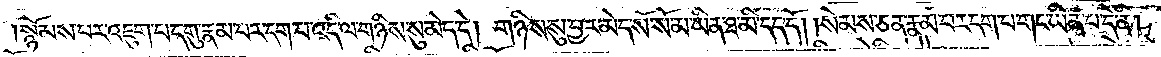སྙོམས་པར་འཇུག་པ་དགུ་རྣམ་པར་དག་པ་འདི་ལ་གཉིས་སུ་མེད་དེ། གཉིས་སུ་བྱར་མེད་སོ་སོ་མ་ཡིན་ཐ་མི་དད་དོ། །སེམས་ཅན་རྣམ་པར་དག་པ་གང་ཡིན་པ་དེ་ནི།
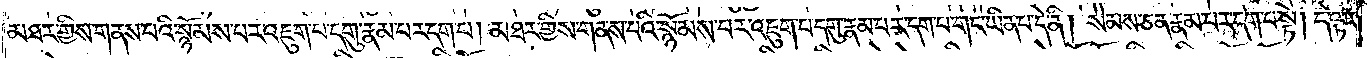མཐར་གྱིས་གནས་པའི་སྙོམས་པར་འཇུག་པ་དགུ་རྣམ་པར་དག་པ། མཐར་གྱིས་གནས་པའི་སྙོམས་པར་འཇུག་པ་དགུ་རྣམ་པར་དག་པ་གང་ཡིན་པ་དེ་ནི། སེམས་ཅན་རྣམ་པར་དག་པ་སྟེ། དེ་ལྟར་
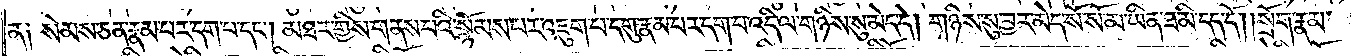ན། སེམས་ཅན་རྣམ་པར་དག་པ་དང༌། མཐར་གྱིས་གནས་པའི་སྙོམས་པར་འཇུག་པ་དགུ་རྣམ་པར་དག་པ་འདི་ལ་གཉིས་སུ་མེད་དེ། གཉིས་སུ་བྱར་མེད་སོ་སོ་མ་ཡིན་ཐ་མི་དད་དོ། །སྲོག་རྣམ་
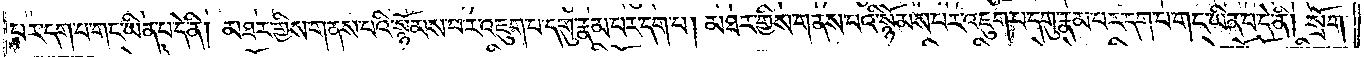པར་དག་པ་གང་ཡིན་པ་དེ་ནི། མཐར་གྱིས་གནས་པའི་སྙོམས་པར་འཇུག་པ་དགུ་རྣམ་པར་དག་པ། མཐར་གྱིས་གནས་པའི་སྙོམས་པར་འཇུག་པ་དགུ་རྣམ་པར་དག་པ་གང་ཡིན་པ་དེ་ནི། སྲོག་
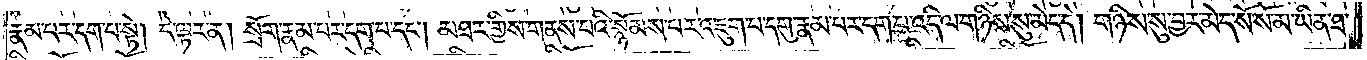རྣམ་པར་དག་པ་སྟེ། དེ་ལྟར་ན། སྲོག་རྣམ་པར་དག་པ་དང༌། མཐར་གྱིས་གནས་པའི་སྙོམས་པར་འཇུག་པ་དགུ་རྣམ་པར་དག་པ་འདི་ལ་གཉིས་སུ་མེད་དེ། གཉིས་སུ་བྱར་མེད་སོ་སོ་མ་ཡིན་ཐ་
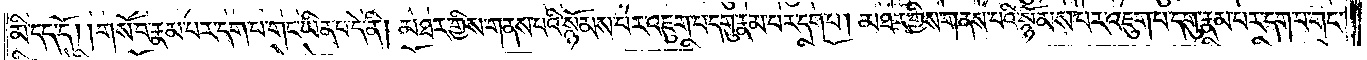མི་དད་དོ། །གསོ་བ་རྣམ་པར་དག་པ་གང་ཡིན་པ་དེ་ནི། མཐར་གྱིས་གནས་པའི་སྙོམས་པར་འཇུག་པ་དགུ་རྣམ་པར་དག་པ། མཐར་གྱིས་གནས་པའི་སྙོམས་པར་འཇུག་པ་དགུ་རྣམ་པར་དག་པ་གང་
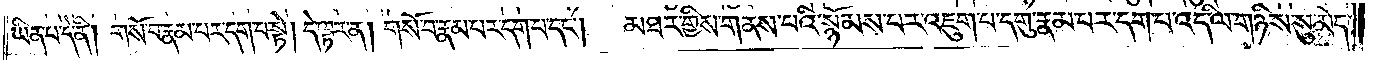ཡིན་པ་དེ་ནི། གསོ་བ་རྣམ་པར་དག་པ་སྟེ། དེ་ལྟར་ན། གསོ་བ་རྣམ་པར་དག་པ་དང༌། མཐར་གྱིས་གནས་པའི་སྙོམས་པར་འཇུག་པ་དགུ་རྣམ་པར་དག་པ་འདི་ལ་གཉིས་སུ་མེད་
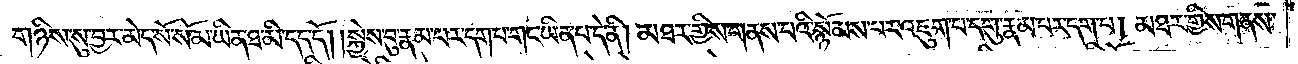དེ། གཉིས་སུ་བྱར་མེད་སོ་སོ་མ་ཡིན་ཐ་མི་དད་དོ། །སྐྱེས་བུ་རྣམ་པར་དག་པ་གང་ཡིན་པ་དེ་ནི། མཐར་གྱིས་གནས་པའི་སྙོམས་པར་འཇུག་པ་དགུ་རྣམ་པར་དག་པ། མཐར་གྱིས་གནས་
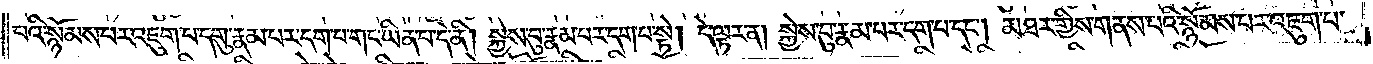པའི་སྙོམས་པར་འཇུག་པ་དགུ་རྣམ་པར་དག་པ་གང་ཡིན་པ་དེ་ནི། སྐྱེས་བུ་རྣམ་པར་དག་པ་སྟེ། དེ་ལྟར་ན། སྐྱེས་བུ་རྣམ་པར་དག་པ་དང༌། མཐར་གྱིས་གནས་པའི་སྙོམས་པར་འཇུག་པ་
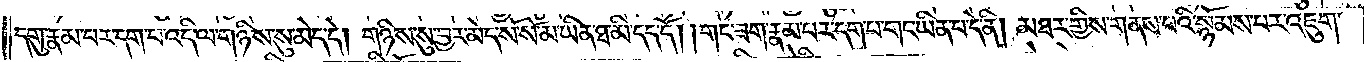དགུ་རྣམ་པར་དག་པ་འདི་ལ་གཉིས་སུ་མེད་དེ། གཉིས་སུ་བྱར་མེད་སོ་སོ་མ་ཡིན་ཐ་མི་དད་དོ། །གང་ཟག་རྣམ་པར་དག་པ་གང་ཡིན་པ་དེ་ནི། མཐར་གྱིས་གནས་པའི་སྙོམས་པར་འཇུག་
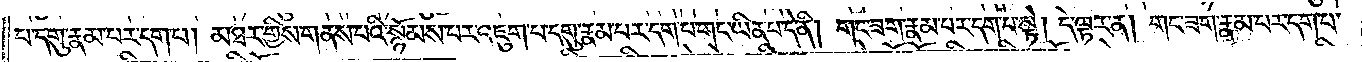པ་དགུ་རྣམ་པར་དག་པ། མཐར་གྱིས་གནས་པའི་སྙོམས་པར་འཇུག་པ་དགུ་རྣམ་པར་དག་པ་གང་ཡིན་པ་དེ་ནི། གང་ཟག་རྣམ་པར་དག་པ་སྟེ༑ དེ་ལྟར་ན། གང་ཟག་རྣམ་པར་དག་པ་
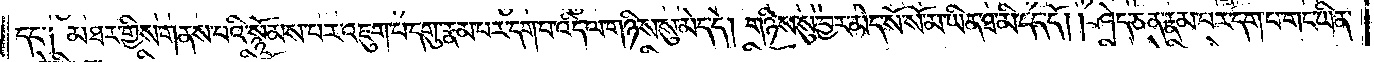དང༌། མཐར་གྱིས་གནས་པའི་སྙོམས་པར་འཇུག་པ་དགུ་རྣམ་པར་དག་པ་འདི་ལ་གཉིས་སུ་མེད་དེ། གཉིས་སུ་བྱར་མེད་སོ་སོ་མ་ཡིན་ཐ་མི་དད་དོ། །ཤེད་ཅན་རྣམ་པར་དག་པ་གང་ཡིན་
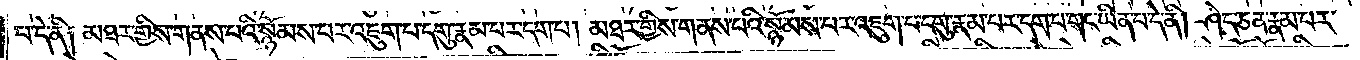པ་དེ་ནི། མཐར་གྱིས་གནས་པའི་སྙོམས་པར་འཇུག་པ་དགུ་རྣམ་པར་དག་པ། མཐར་གྱིས་གནས་པའི་སྙོམས་པར་འཇུག་པ་དགུ་རྣམ་པར་དག་པ་གང་ཡིན་པ་དེ་ནི། ཤེད་ཅན་རྣམ་པར་
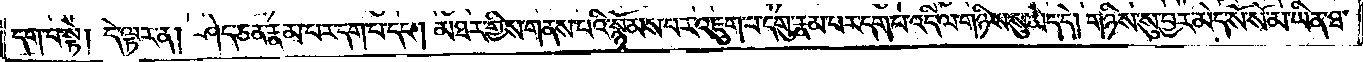དག་པ་སྟེ། དེ་ལྟར་ན། ཤེད་ཅན་རྣམ་པར་དག་པ་དང༌། མཐར་གྱིས་གནས་པའི་སྙོམས་པར་འཇུག་པ་དགུ་རྣམ་པར་དག་པ་འདི་ལ་གཉིས་སུ་མེད་དེ། གཉིས་སུ་བྱར་མེད་སོ་སོ་མ་ཡིན་ཐ་
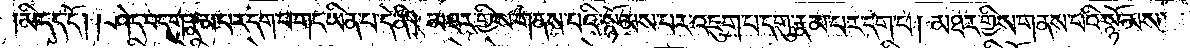མི་དད་དོ། །ཤེད་བདག་རྣམ་པར་དག་པ་གང་ཡིན་པ་དེ་ནི། མཐར་གྱིས་གནས་པའི་སྙོམས་པར་འཇུག་པ་དགུ་རྣམ་པར་དག་པ། མཐར་གྱིས་གནས་པའི་སྙོམས་
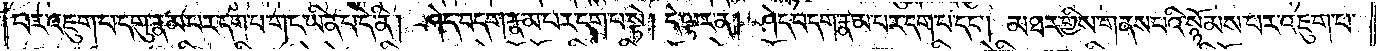པར་འཇུག་པ་དགུ་རྣམ་པར་དག་པ་གང་ཡིན་པ་དེ་ནི། ཤེད་བདག་རྣམ་པར་དག་པ་སྟེ། དེ་ལྟར་ན། ཤེད་བདག་རྣམ་པར་དག་པ་དང༌། མཐར་གྱིས་གནས་པའི་སྙོམས་པར་འཇུག་པ་
